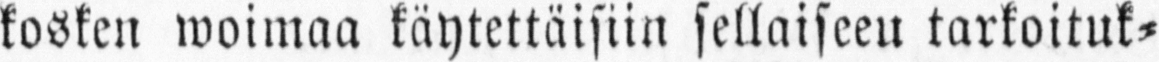kosken woimaa käytettäisiin sellaiseeu tarkoituk-
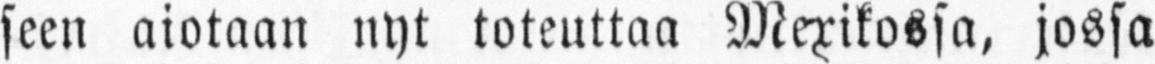seen aiotaan nyt toteuttaa Mexikossa, jossa
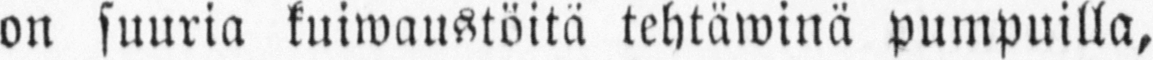on suuria kuiwaustöitä tehtäwinä pumpuilla,
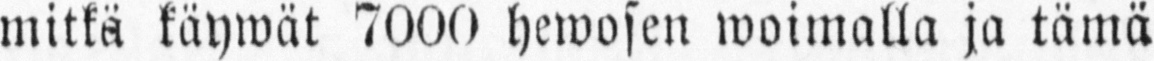mitkä käywät 7000 hewosen woimalla ja tämä
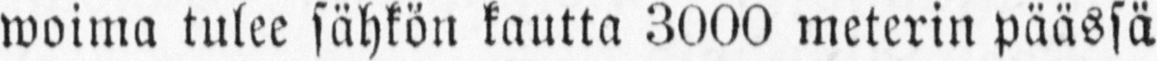woima tulee sähkön kautta 3000 meterin päässä
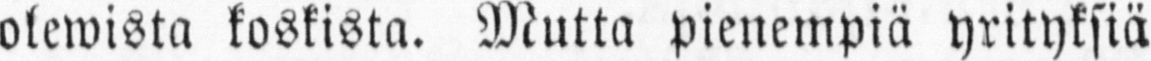olewista koskista. Mutta pienempiä yrityksiä
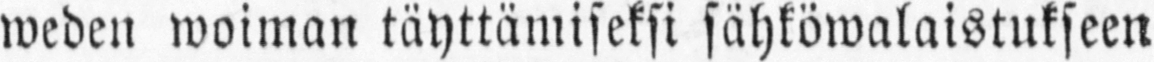weden woiman täyttämiseksi sähköwalaistukseen
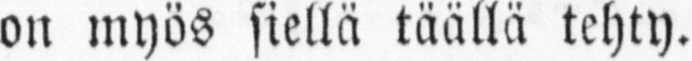on myös siellä täällä tehty.
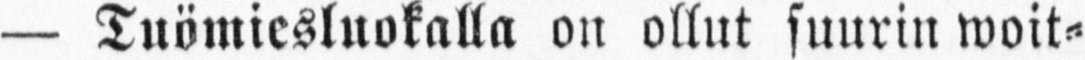— Tuömiesluokalla on ollut suurin woit-
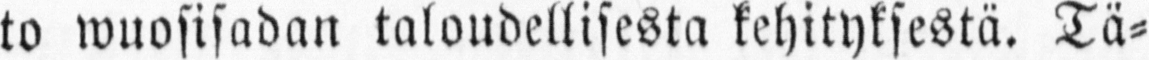to wuosisadan taloudellisesta kehityksestä. Tä-
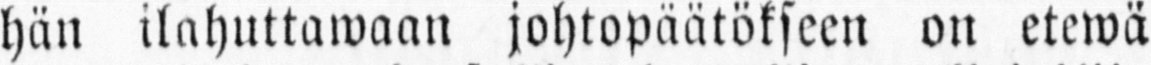hän ilahuttawaan johtopäätökseen on etewä
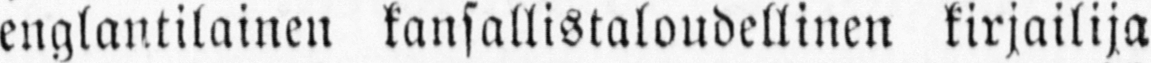englantilainen kansallistaloudellinen kirjailija
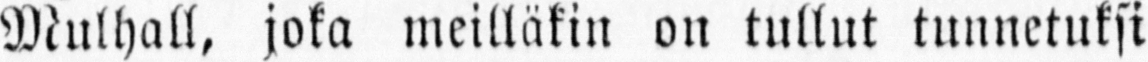Mulhall, joka meilläkin on tullut tunnetuksi
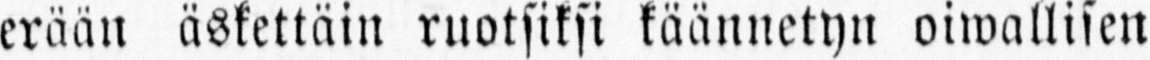erään äskettäin ruotsiksi käännetyn oiwallnen
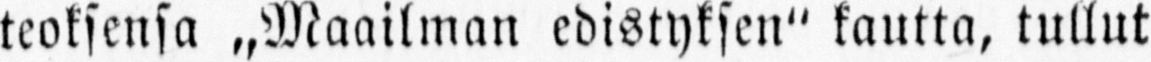teoksensa ˶Maailman edistyksen" kautta, tullut
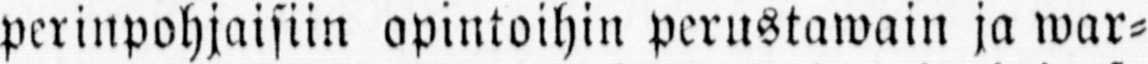perinpohjaisiin opintoihin perustawain ja war-
